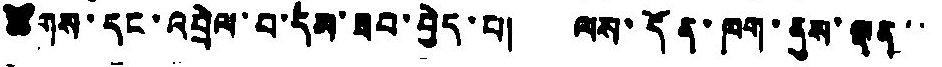ཚོགས་དང་འབྲེལ་བ་དམ་ཟབ་བྱེད་པ། ལས་དོན་ཁག་ནུས་ལྡན་་
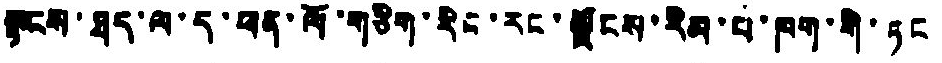སྟངས་ཐད་ལ་ད་ཕན་ཁོ་གཅིག་རིང་རང་ལྗོངས་རིམ་པ་ཁག་གི་ཏང
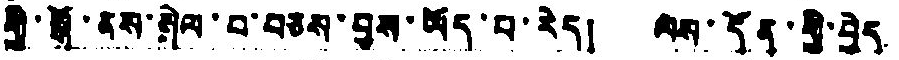གྱི་སྒོ་ནས་སྲེལ་བ་བཅས་བྱས་ཡོད་པ་རེད། ལས་དོན་གྱི་བྱེད
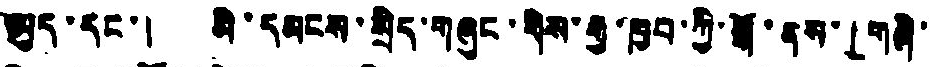ཨུད་དང་། མི་དམངས་སྲིད་གཞུང་གིས་རྒྱ་ཁྱབ་ཀྱི་སྒོ་ནས་「གཞི་
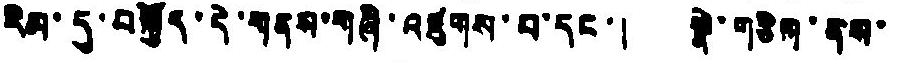རིམ་དུ་བསྐྱོད་དེ་གནས་གཞི་འཛུགས་པ་དང་། སྣེ་གཅིག་ནས་
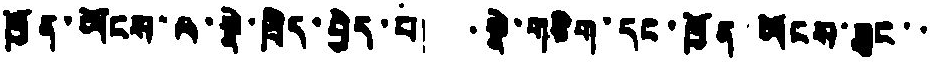ཁྱོན་ཡོངས་ལ་སྣེ་ཁྲིད་བྱེད་པ། སྣེ་གཅིག་དང་ཁྱོན ཡོངས་ཟུང་་
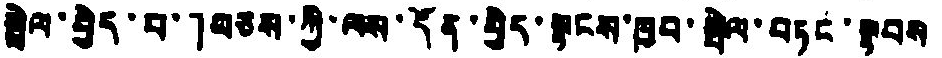སྦྲེལ་བྱེད་བ་」བཅས་ཀྱི་ལས་དོན་བྱེད་སྟངས་ཁྱབ་སྤེལ་བཏང་སྟབས
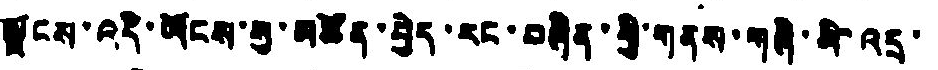ལྗོངས་འདི་ཡོངས་སུ་མཚོན་བྱེད་རང་བཞིན་གྱི་གནས་གཞི་མི་འདྲ་
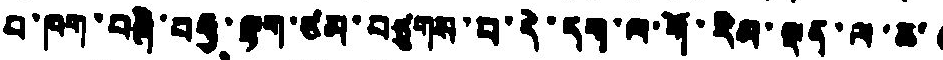བ་ཁག་གཞི་བརྒྱ་ལྷག་ཙམ་བཙུགས་པ་དེ་དག་ལ་གོ་རིམ་ལྡན་ལ་ཆ་
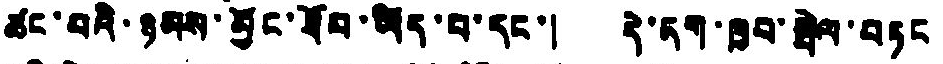ཚང་བའི་ཉམས་མྱོང་ཐོབ་ཡོད་པ་དང་། དེ་དག་ཁྱབ་སྤེལ་བཏང
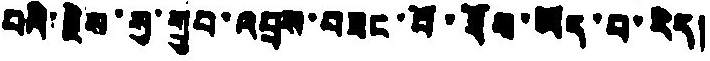བའི་རྗེས་སུ་གྲུབ་འབྲས་བཟང་པོ་ཐོབ་ཡོད་པ་རེད།
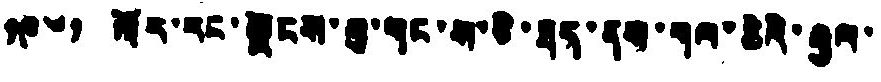༡༩༦༡ ལོར་རང་ལྗོངས་སུ་གང་ས་ཅི་ཐད་ནས་གལ་ཆེའི་རྒྱལ་
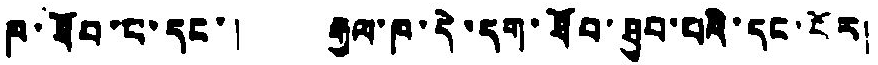ཁ་ཐོབ་པ་དང་། རྒྱལ་ཁ་དེ་དག་ཐོབ་ཐུབ་པའི་དང་པོར།
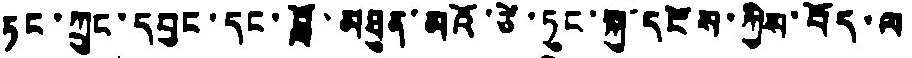ཏང་ཀྲུང་དབྱང་དང་བློ་མཐུན་མའོ་ཙེ་ཏུང་སྐུ་དངོས་ཀྱིས་བོད་ལ
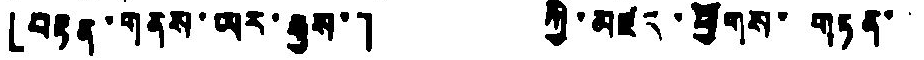「བརྟན་གནས་ཡར་རྒྱས་」 ཀྱི་མཛད་ཕྱོགས་གཏན་་
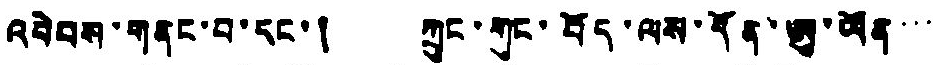འབེབས་གནང་བ་དང་། ཀྲུང་གུང་བོད་ལས་དོན་ཨུ་ཡོན་་་
